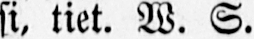si, tiet. W. S.
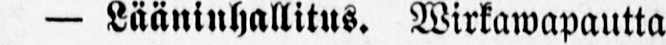- Lääninhallitus. Wirkawapautta
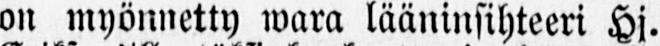on myönnetty wara lääninsihteeri Hj.
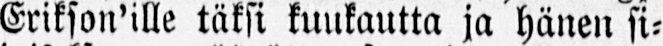Erikson'ille täksi kuukautta ja hänen si-
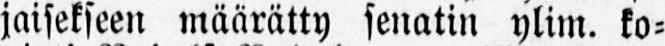jaisekseen määrätty senatin ylim. ko-
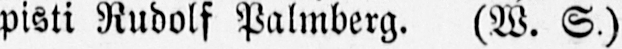pisti Rudolf Palmberg. (W. S.)
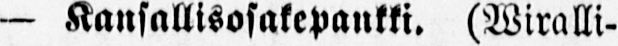— Kansallisosakepankki. (Wiralli-
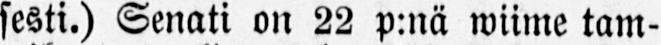sesti.) Senati on 22 p:nä wiime tam-
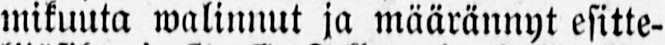mikuuta walinnut ja määrännyt esitte-
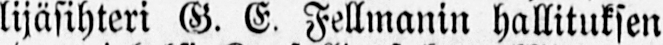lijäsihteri G. E. Fellmanin hallituksen
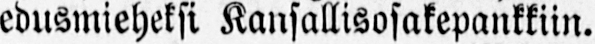edusmieheksi Kansallisosakepankkiin.
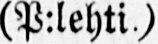(P:lehti.)
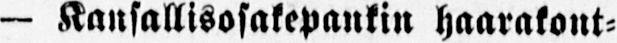— Kansallisosakepankin haarakont-
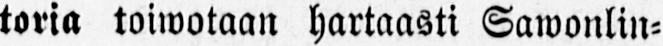toria toiwotaan hartaasti Sawonlin-
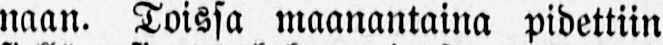naan. Toissa maanantaina pidettiin
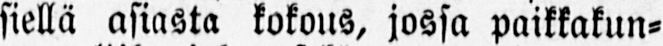siellä asiasta kokous, jossa paikkakun-
